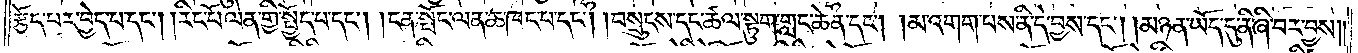རྩོད་པར་བྱེད་པ་དང༌། །རིང་པོ་ལེན་གྱི་སྤྱོད་པ་དང༌། །ངན་སྤོང་ལན་ཆ་ཁང་པ་དང༌། །བསྲུངས་དང་ཚལ་སྟུག་གླང་ཆེན་དང༌། །མ་འགག་པས་ནི་དེ་བྱས་དང༌། །མཉན་ཡོད་དུ་ནི་ཞི་བར་བྱས། །
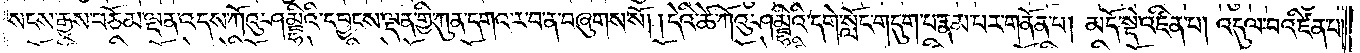སངས་རྒྱས་བཅོམ་ལྡན་འདས་ཀོའུ་ཤམྦྷིའི་དབྱངས་ལྡན་གྱི་ཀུན་དགའ་ར་བ་ན་བཞུགས་སོ། །དེའི་ཚེ་ཀོའུ་ཤམྦྷིའི་དགེ་སློང་གདུག་པ་རྣམ་པར་གནོན་པ། མདོ་སྡེ་འཛིན་པ། འདུལ་བ་འཛིན་པ།
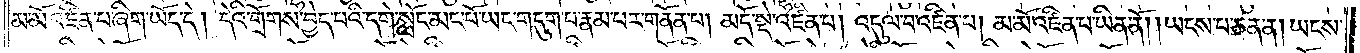མ་མོ་འཛིན་པ་ཞིག་ཡོད་དེ། དེའི་གྲོགས་བྱེད་པའི་དགེ་སློང་མང་པོ་ཡང་གདུག་པ་རྣམ་པར་གནོན་པ། མདོ་སྡེ་འཛིན་པ། འདུལ་བ་འཛིན་པ། མ་མོ་འཛིན་པ་ཡིན་ནོ། །ཡངས་པ་ཅན་ན། ཡངས་
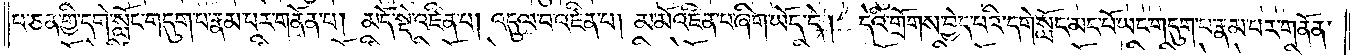པ་ཅན་གྱི་དགེ་སློང་གདུག་པ་རྣམ་པར་གནོན་པ། མདོ་སྡེ་འཛིན་པ། འདུལ་བ་འཛིན་པ། མ་མོ་འཛིན་པ་ཞིག་ཡོད་དེ། དེའི་གྲོགས་བྱེད་པའི་དགེ་སློང་མང་པོ་ཡང་གདུག་པ་རྣམ་པར་གནོན་
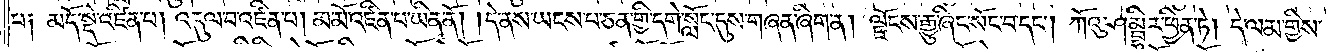པ༑ མདོ་སྡེ་འཛིན་པ། འདུལ་བ་འཛིན་པ། མ་མོ་འཛིན་པ་ཡིན་ནོ། །དེ་ནས་ཡངས་པ་ཅན་གྱི་དགེ་སློང་དུས་གཞན་ཞིག་ན། ལྗོངས་རྒྱུ་ཞིང་སོང་བ་དང༌། ཀོའུ་ཤམྦྷིར་ཕྱིན་ཏེ། དེ་ལམ་གྱིས་
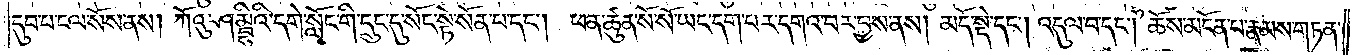དུབ་པ་ངལ་སོས་ནས། ཀོའུ་ཤམྦྷིའི་དགེ་སློང་གི་དྲུང་དུ་སོང་སྟེ་སོན་བ་དང༌། ཕན་ཚུན་སོ་སོ་ཡང་དག་པར་དགའ་བར་བྱས་ནས། མདོ་སྡེ་དང༌། འདུལ་བ་དང༌། ཆོས་མངོན་པ་རྣམས་གཏན་
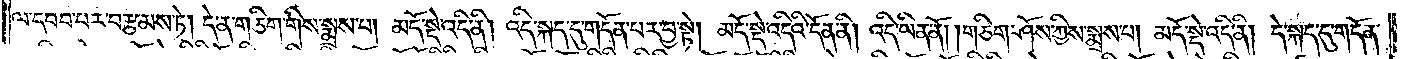ལ་དབབ་པར་བརྩམས་ཏེ། དེ་ན་གཅིག་གིས་སྨྲས་པ། མདོ་སྡེ་འདི་ནི། འདི་སྐད་དུ་གདོན་པར་བྱ་སྟེ། མདོ་སྡེ་འདིའི་དོན་ནི། འདི་ཡིན་ནོ། །གཅིག་ཤོས་ཀྱིས་སྨྲས་པ། མདོ་སྡེ་འདི་ནི། དེ་སྐད་དུ་གདོན་
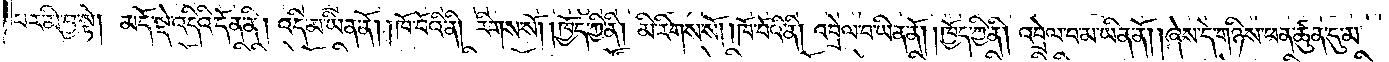པར་མི་བྱ་སྟེ། མདོ་སྡེ་འདིའི་དོན་ནི། འདི་མ་ཡིན་ནོ། །ཁོ་བོའི་ནི། རིགས་སོ། །ཁྱོད་ཀྱི་ནི། མི་རིགས་སོ། །ཁོ་བོའི་ནི། འབྲེལ་བ་ཡིན་ནོ། །ཁྱོད་ཀྱི་ནི། འབྲེལ་བ་མ་ཡིན་ནོ། །ཞེས་དེ་གཉིས་ཕན་ཚུན་དུ་མ་
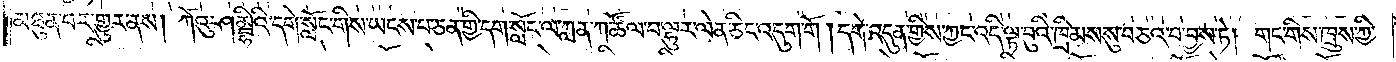མཐུན་པར་གྱུར་ནས། ཀོའུ་ཤམྦྷིའི་དགེ་སློང་གིས་ཡངས་པ་ཅན་གྱི་དགེ་སློང་ལ་ཀླན་ཀ་ཚོལ་བ་ལྷུར་ལེན་ཅིང་འདུག་གོ། དགེ་འདུན་གྱིས་ཀྱང་འདི་ལྟ་བུའི་ཁྲིམས་སུ་བཅའ་བ་བྱས་ཏེ། གང་གིས་ཁྲུས་ཀྱི་
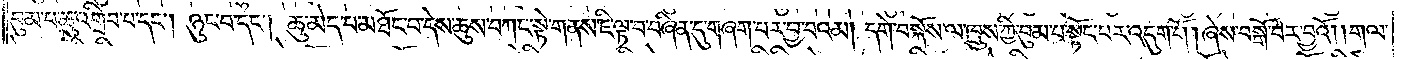བུམ་པ་ཆུ་འགྲིབ་པ་དང༌། ཉུང་བ་དང༌། ཆུ་མེད་པ་མཐོང་བ་དེས་ཆུས་བཀང་སྟེ་གནས་ཇི་ལྟ་བ་བཞིན་དུ་གཞག་པར་བྱ་བའམ། དགེ་བསྐོས་ལ་ཁྲུས་ཀྱི་བུམ་པ་སྟོང་པར་འདུག་གོ། ཞེས་བསྒོ་བར་བྱའོ། །གལ་
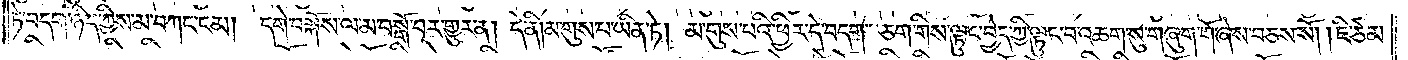ཏེ་བདག་ཉིད་ཀྱིས་མ་བཀང་ངམ། དགེ་བསྐོས་ལ་མ་བསྒོ་བར་གྱུར་ན། དེ་ནི། མ་གུས་པ་ཡིན་ཏེ། མ་གུས་པའི་ཕྱིར་དེ་བདག་ཅག་གིས་ལྟུང་བྱེད་ཀྱི་ལྟུང་བ་འཆག་སུ་གཞུག་གོ་ཞེས་བཅས་སོ། །ཇི་ཙམ་
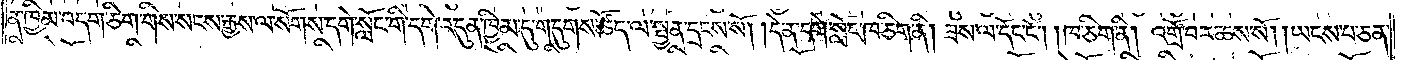ན་ཁྱིམ་བདག་ཅིག་གིས་སངས་རྒྱས་ལ་སོགས་དགེ་སློང་གི་དགེ་འདུན་ཁྱིམ་དུ་གདུགས་ཚོད་ལ་སྤྱན་དྲངས་སོ། །དེ་ན་དགེ་སློང་ཁ་ཅིག་ནི། ཟས་ལ་དོང་ངོ༌། །ཁ་ཅིག་ནི། འགྲོ་བར་ཆས་སོ། །ཡངས་པ་ཅན་
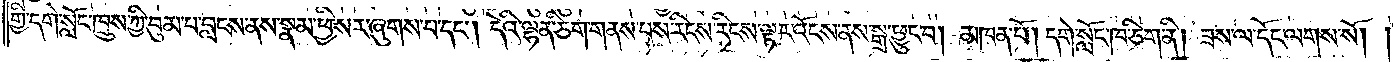གྱི་དགེ་སློང་ཁྲུས་ཀྱི་བུམ་པ་བླངས་ནས་སྣམ་ཕྱི་སར་ཞུགས་པ་དང༌། དེའི་ལྷན་ཅིག་གནས་པས་རིངས་རིངས་ལྟར་འོངས་ནས་སྒྲ་ཕྱུང་བ། མཁན་པོ། དགེ་སློང་ཁ་ཅིག་ནི། ཟས་ལ་དོང་ལགས་སོ། །
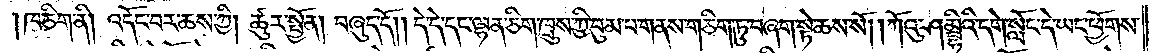།ཁ་ཅིག་ནི། འདོང་བར་ཆས་ཀྱི། ཚུར་སྤྱོན། བཞུད་དོ། །དེ་དེ་དང་ལྷན་ཅིག་ཁྲུས་ཀྱི་བུམ་པ་གནས་གཅིག་ཏུ་བཞག་སྟེ་ཆས་སོ། །ཀོའུ་ཤམྦྷིའི་དགེ་སློང་དེ་ཡང་ཕྱོགས་
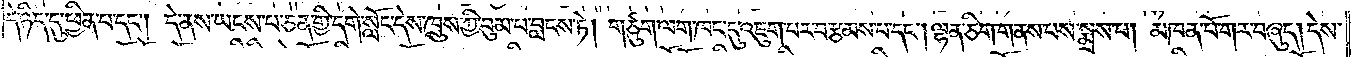དེ་ཉིད་དུ་ཕྱིན་པ་དང༌། དེ་ནས་ཡངས་པ་ཅན་གྱི་དགེ་སློང་དེས་ཁྲུས་ཀྱི་བུམ་པ་བླངས་ཏེ། གཙུག་ལག་ཁང་དུ་འཇུག་པར་བརྩམས་པ་དང༌། ལྷན་ཅིག་གནས་པས་སྨྲས་པ། མཁན་པོ་གར་བཞུད། དེས་
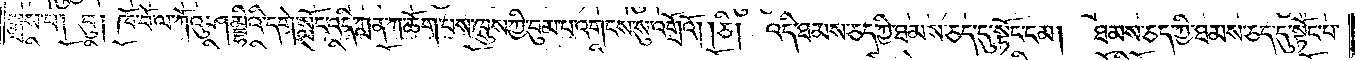སྨྲས་པ། བུ། ཁོ་བོ་ལ་ཀོའུ་ཤམྦྷིའི་དགེ་སློང་འདི་ཀླན་ཀ་ཆོག་པས་ཁྲུས་ཀྱི་བུམ་པ་འགངས་སུ་འགྲོའོ། །ཅི། འདི་ཐམས་ཅད་ཀྱི་ཐམས་ཅད་དུ་སྟོང་ངམ། ཐམས་ཅད་ཀྱི་ཐམས་ཅད་དུ་སྟོང་པ་
